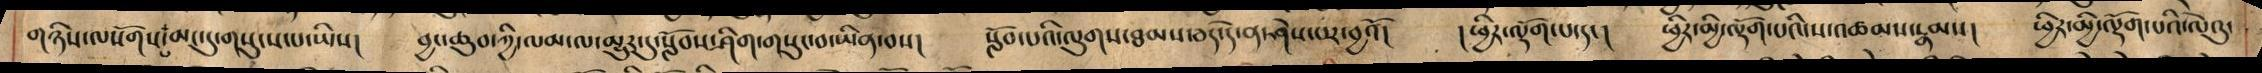གཉིས་ལསོགས་མང་དུ་གསུངས་པ་ཡིས། བྱང་ཆུབ་ཀྱི་ལམ་ལ་མྱུར་དུ་སློབས་ཤིག་གསུང་བ་ཡིན་བས། སློབ་པའི་ལུགས་ཐམས་ཅད་དེ་ན་ཤེས་པར་བྱའོ། །ཕྱིར་ལྡོག་པ་དང། ཕྱིར་མི་ལྡོག་པ་དང། ཕྱིར་མྱི་ལྡོག་པའི་ས་འཚམས་རྣམས། ཕྱིར་མྱི་ལྡོག་པའི་ལེའུ་
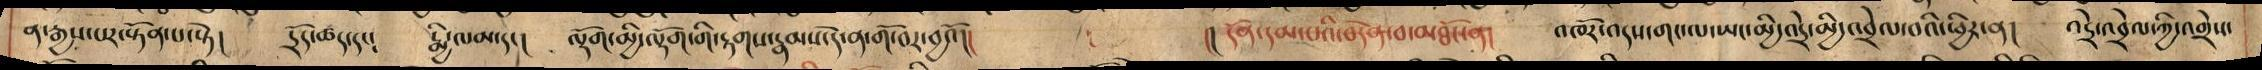ན་རྒྱས་པར་སྟོན་པ་སྟེ། དྲོད་ཚད་དང། རྨྱི་ལམ་དང། ལྡོག་མྱི་ལྡོག་གི་རྟགས་རྣམས་དེ་ན་གོ་བར་བྱའོ།། །། དོན་དམ་པའི་བདེན་བ་མཐོང་ན། འཁོར་འདས་གང་ལ་ཡང་མྱི་འདྲེ་མྱི་འབྲེལ་བའི་ཕྱིར་ན། འདྲེ་འབྲེལ་ཀྱི་འགྲེས་
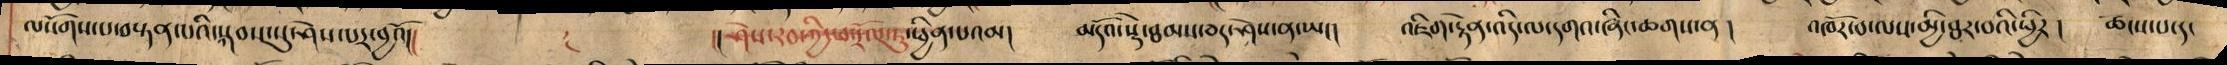ལསོགས་པ་བསྟན་པའི་སྐབས་སུ་ཤེས་པར་བྱའོ།། །།ཤེས་རབ་ཀྱི་ཕ་རོལ་ཏུ་ཕྱིན་པའམ། མདོའ་སྡེ་ཐམས་ཅད་ཤེས་ན་ཡང། འཇིག་རྟེན་འདི་འདགའ་ཞིང་ཆགས་ན །  འཁོར་བ་ལས་མྱི་ཐར་བའི་ཕྱིར ། ཚངས་པ་དང
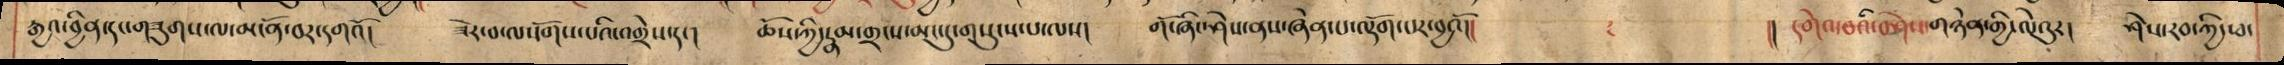རྒྱའ་བྱིན་དང་གཟུགས་ལ་མངོན་བར་དགའོ། ཟེར་བ་ལསོགས་པའི་འགྲེས་དང། ཆོས་ཀྱི་རྣམ་གྲངས་མང་དུ་གསུངས་པ་ལས། གོ་ཞིང་ཤེས་ནས་ཞེན་པ་ལྡོག་པར་བྱའོ།། །། དགེའ་བའི་བཤེས་གཉེན་གྱི་ལེའུར། ཤེས་རབ་ཀྱི་ཕ་
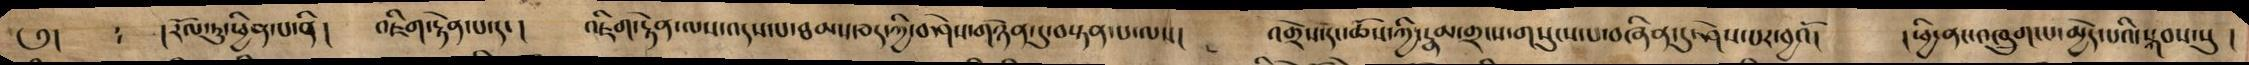༅། : །རོལ་ཏུ་ཕྱིན་པ་ནི ། འཇིག་རྟེན་པ་དང། འཇིག་རྟེན་ལས་འདས་པ་ཐམས་ཅད་ཀྱི་བཤེས་གཉེན་དུ་བསྟན་པ་ལས། །ཕྱི་ནང་འཁྲུག་པ་མྱེད་པའི་སྐབས་སུ །
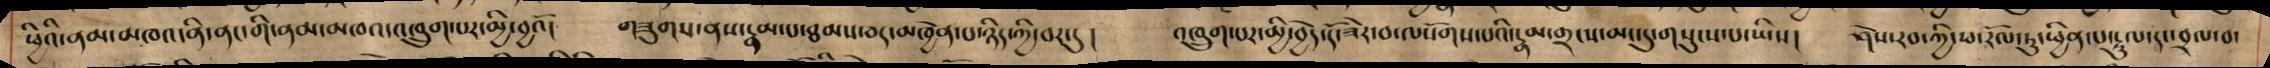ཕྱིའི་ནམ་མཁའ་ནི་ནང་གི་ནམ་མཁའ་འཁྲུག་པར་མྱི་བྱའོ། གཟུགས་ནས་རྣམ་པ་ཐམས་ཅད་མཁྱེན་པ་ཉིད་ཀྱི་བར་དུ ། འཁྲུག་པར་མྱི་བྱེད་དོ་ཟེར་བ་ལསོགས་པའི་རྣམ་གྲངས་མང་དུ་གསུངས་པ་ཡིས། ཤེས་རབ་ཀྱི་ཕ་རོལ་ཏུ་ཕྱིན་པ་རྡུལ་དང་བྲལ་བ་
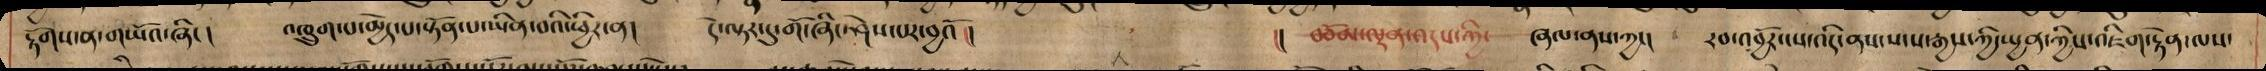རྟོགས་ན་གཡོའ་ཞིང། འཁྲུག་པ་མྱེད་པ་སྟོན་པ་ཡིན་བའི་ཕྱིར་ན། དེ་ལྟར་དུ་གོ་ཞིང་ཤེས་པར་བྱའོ།། །། བཅོམ་ལྡན་འདས་ཀྱི་ ཞལ་ནས་ཀྱང། རབ་འབྱོར་ངས་འདི་ནས་སངས་རྒྱས་ཀྱི་ཡྱན་ཀྱིས་འཇིག་རྟེན་ལས་
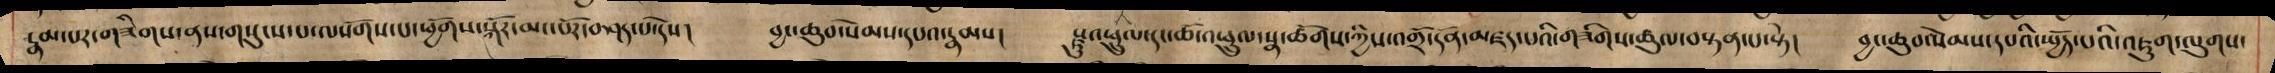རྣམ་པར་གཟིགས་ནས་གསུངས་པ་ལསོགས་པ་ཕྱོགས་སྐོར་མང་པོར་བཤད་པ་དེས། བྱང་ཆུབ་སེམས་དཔའ་རྣམས། སྫུ་ྼའཕྲུལ་དང་ཆོ་འཕྲུལ་སྣ་ཚོགས་ཀྱིས་འགྲོ་དོན་མཛད་པའི་གཟིགས་ཚུལ་བསྟན་པ་སྟེ། བྱང་ཆུབ་སེམས་དཔའི་སྤྱོད་པའི་འཇུག་ལུགས་
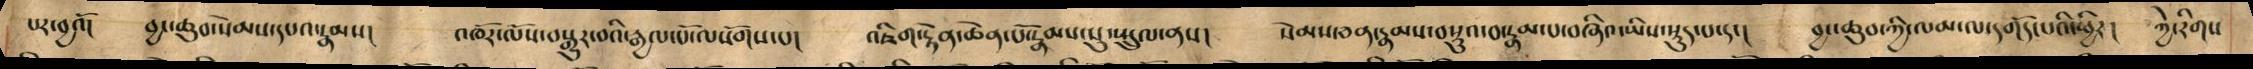པར་བྱའོ། བྱང་ཆུབ་སེམས་དཔའ་རྣམས། འཁོར་ལོས་བསྒྱུར་བའི་རྒྱལ་པོ་ལསོགས་པ། འཇིག་རྟེན་ཆེན་པོ་རྣམས་སུ་སྤྲུལ་ནས། སེམས་ཅན་རྣམས་བསྡུའ་བ་རྣམ་པ་བཞིའ་ཡིས་སྡུད་པ་དང།་བྱང་ཆུབ་ཀྱི་ལམ་ལ་དགོད་པའི་ཕྱིར། ཀྱེ་རིགས
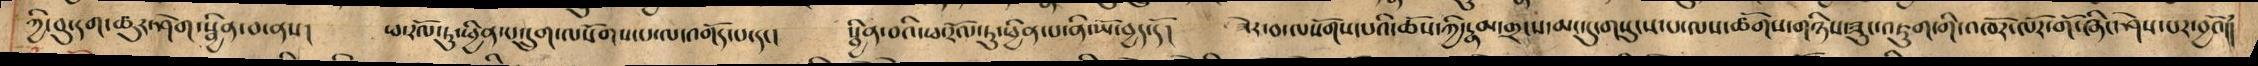ཀྱི་བུ་དག་ཚུར་ཤེག་སྦྱིན་བ་ནས། ཕ་རོལ་ཏུ་ཕྱིན་པ་དྲུག་ལ་སོགས་པ་ལ་འགོད་པ་དང། སྦྱིན་པའི་ཕ་རོལ་ཏུ་ཕྱིན་པ་ནི་ཡོ་བྱད་དོ། ཟེར་བ་ལསོགས་པའི་ཆོས་ཀྱི་རྣམ་གྲངས་མང་དུ་གསུངས་པ་ལས་ཚོགས་གཉིས་ཟུང་འཇུག་གི་འཁོར་ལོར་གོ་ཞིང་ཤེས་པར་བྱའོ།།
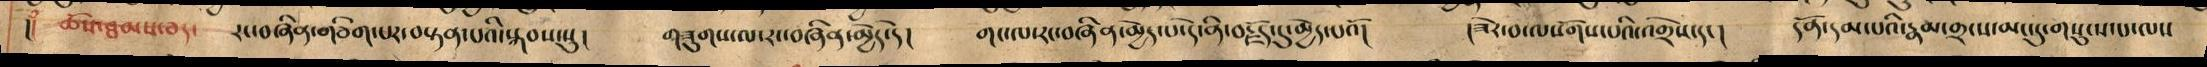།། ཆོས་ཐམས་ཅད་ རང་བཞིན་གཅིག་པར་བསྟན་པའི་སྐབས་སུ། གཟུགས་ལ་རང་བཞཱིན་མེད་པ་དེ་ནི་བརྗོད་དུ་མེད་པའོ། །ཟེར་བ་ལསོགས་པའི་འགྲེས་དང། དོན་དམ་པའི་རྣམ་གྲངས་མང་དུ་གསུངས་པ་ལས
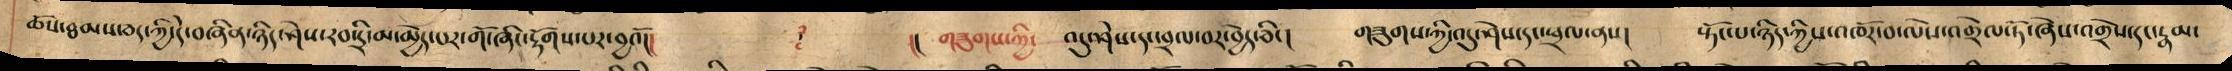ཆོས་ཐམས་ཅད་ཀྱི་དེ་བཞིན་ཉིད་ཤེས་རབ་དྲི་མ་མྱེད་པར་གོ་ཞིང་རྟོགས་པར་བྱའོ།། །། གཟུགས་ཀྱི་ འདུ་ཤེས་དང་བྲལ་བར་བྱེད་ཅིང། གཟུགས་ཀྱི་འདུ་ཤེས་དང་ཕྲལ་ནས། སྟོང་པ་ཉིད་ཀྱི་འཁོར་བ་ལེས་འགྲེལ་ཏོ་ཞེས་འགྲེས་དང་རྣམ་
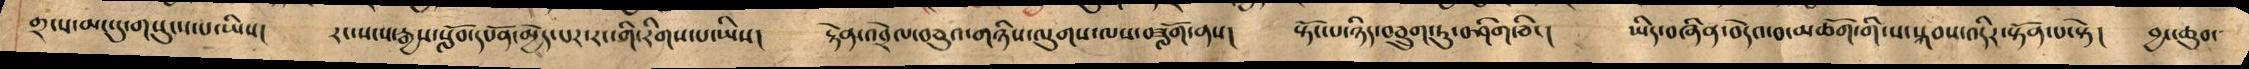གྲངས་མང་དུ་གསུངས་པ་ཡིས། རང་སངས་རྒྱས་སློབ་དཔོན་མྱེད་པར་རང་གི་རིགས་པ་ཡིས། རྟེན་འབྲེལ་བཅུའ་གཉིས་ལུགས་ལས་བཟློག་ནས། སྟོང་པ་ཉིད་བཅྲུག་ཏུ་བཤིག་ཅིང། ཡིད་བཞིན་བདེའ་བ་མཆོག་གི་ས་སྐབས་འདིར་སྟོན་པ་སྟེ། བྱང་ཆུབ་
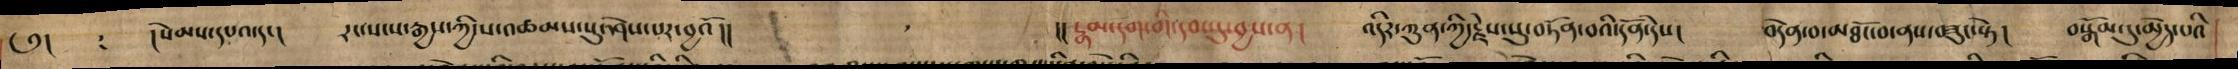༅། : །སེམས་དཔའ་དང། རང་སངས་རྒྱས་ཀྱི་ས་འཚམས་སུ་ཤེས་པར་བྱའོ།། །།རྣམ་དག་གི་དབང་དུ་བྱས་ན། འདིར་ཀུན་ཀྱི་རྗེས་སུ་བཏོན་བའི་དོན་དེས། བདེན་བ་མཐོང་བ་ནས་བཟུང་སྟེ། བསྒོམ་དུ་མྱེད་པའི
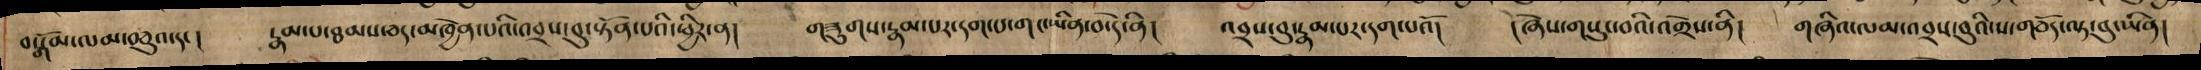བསྒོམ་ལམ་བཅུའ་དང། རྣམ་པ་ཐམས་ཅད་དུ་མཁྱེན་པའི་འབྲས་བུ་སྟོན་པའི་ཕྱིར་ན། གཟུགས་རྣམ་པར་དག་པ་གང་ཡིན་བ་དེ་ནི། འབྲས་བུ་རྣམ་པར་དག་པའོ། །ཞེས་གསུང་བའི་འགྲེས་ནི། གཞིའ་ལམ་འབྲས་བུའི་ས་གཅོད་ལྟ་བུ་ཡིན།
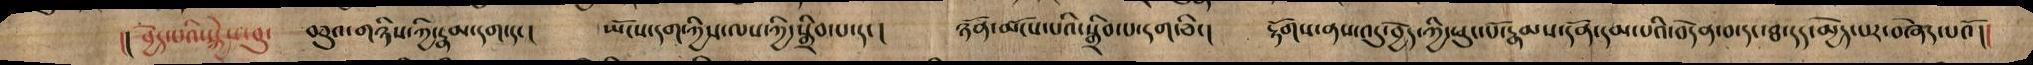།། བྱེད་པའི་སྐྱེས་བུ་ བཅུའ་གཉིས་ཀྱི་རྣམ་དག་དང། ཡོངས་དག་ཀྱིས་ལས་ཀྱི་སྒྲིབ་པ་དང། ཉོན་མོངས་པའི་སྒྲིབ་པ་དག་ཅིང། རྟོགས་ནས་འདུ་བྱེད་ཀྱི་ཕུང་པོ་རྣམས་དོན་དམ་པའི་བདེན་བ་དང་ཐ་དད་མྱེད་པར་བཞེད་པའོ།།
